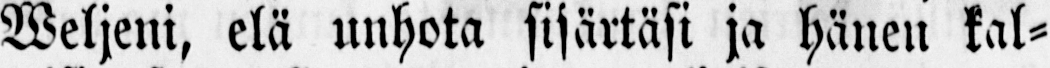Weljeni, elä unhota sisärtäsi ja hänen kal-
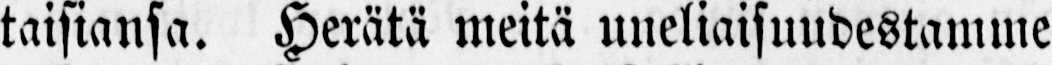taisiansa. Herätä meitä uneliaisuudestamme
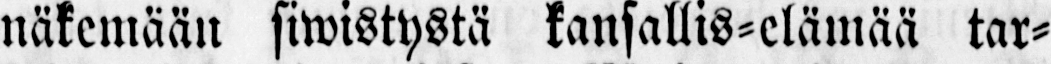näkemään siwistystä kansallis-elämää tar-
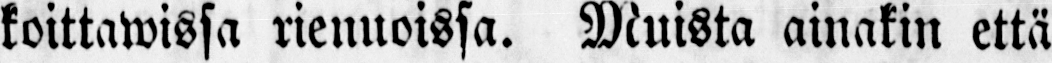koittawissa rienuoissa. Muista ainakin että
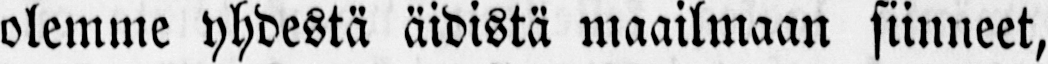olemme yhdestä äidistä maailmaan siinneet,
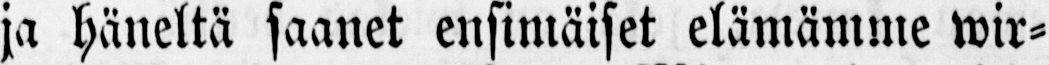ja häneltä saanet ensimäiset elämämme wir-
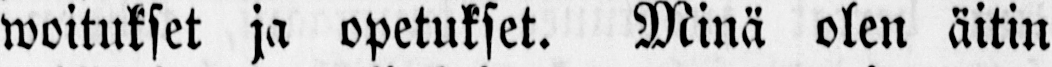woitukset ja opetukset. Minä olen äitin
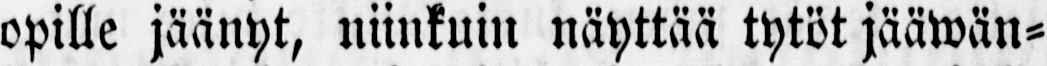opille jäänyt, niinkuin näyttää tytöt jääwän-
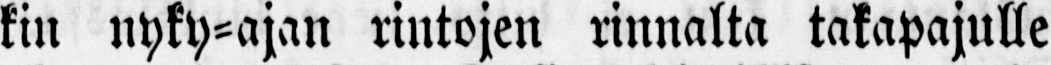kin nyky-ajan rintojen rinnalta takapajulle
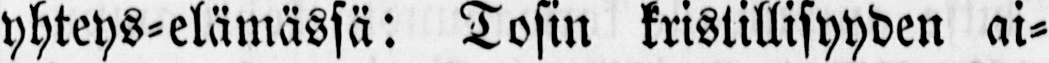yhteys-elämässä: Tosin kristillisyyden ai-
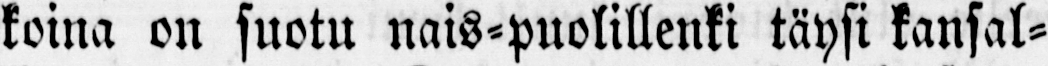koina on suotu nais-puolillenki täysi kansal-
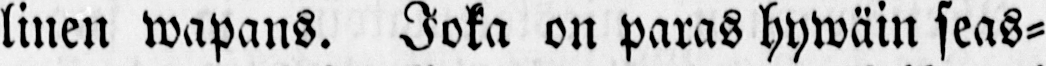linen wapans. Joka on paras hywäin seas-
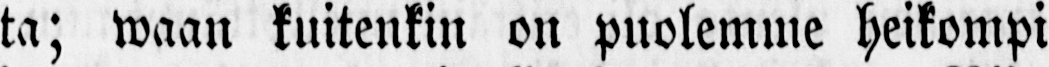ta; waan kuitenkin on puolemme heikompi
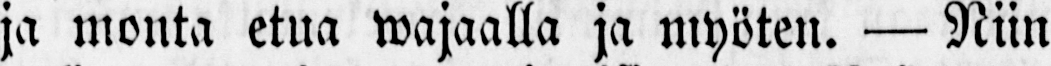ja monta etua wajaalla ja myöten. — Niin
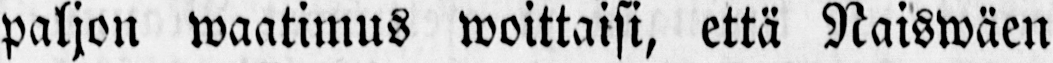paljon waatimus woittaisi, että Naiswäen
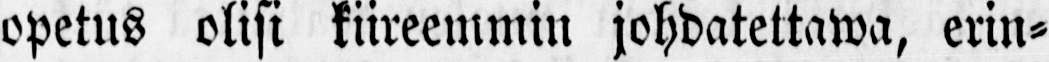opetus olisi kiireemmin johdatettawa, erin-
